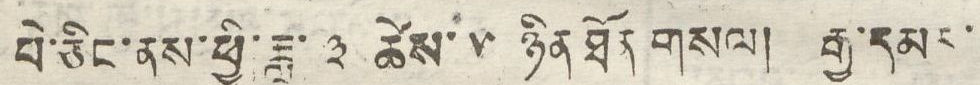པེ་ཅིང་ནས་ཕྱི་ཟླ་ ༣ ཚེས་ ༥ ཉིན ཐོན གསལ། རྒྱ་དམར་
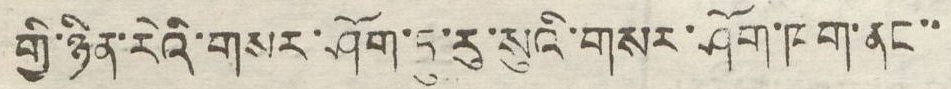གྱི་ཉིན་རེའི་གསར་ཤོག་དུ་རུ་སུའི་གསར་ཤོག་ཁག་ནང་་
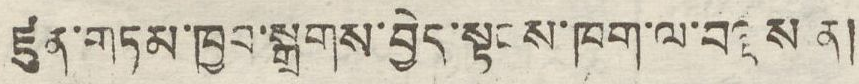ཛུན་གཏམ་ཁྱབ་སྒྲགས་བྱེད་སྟངས་ཁག་ལ་བལྟས ན།
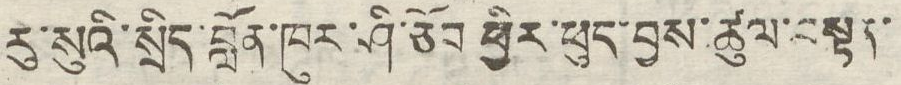རུ་སུའི་སྲིད་བློན་ཁུར་ཤི་ཅོབ ཕྱིར་ཕུད་བྱས་ཚུལ་བསྟན་
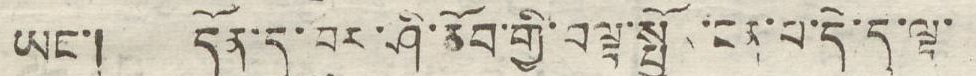ཡང་། དོན་དུ་ཁུར་ཤི་ཅོབ་གྱི་བལྟ་སྦྱོར་ངན་བ་དེ་ད་ལྟ་
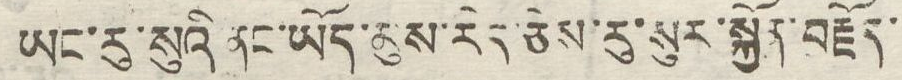ཡང་རུ་སུའི ནང་ཡོད་མུས་རེད་ཅེས་རུ་སུར་སྐྱོན་བརྗོད་
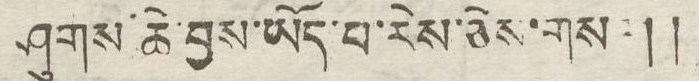ཤུགས་ཆེ་བྱས་ཡོད་པ་རེད་ཅེས་གསལ།།
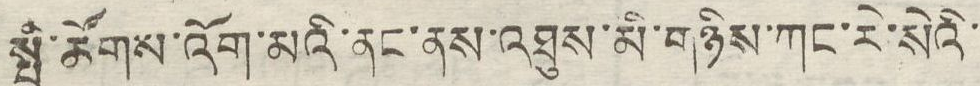སྤྱི་ཚོགས་འོག་མའི་ནང་ནས་འཐུས་མི་གཉིས་ཀང་རེ་སིའི་
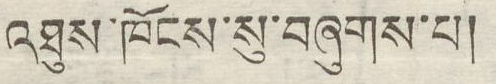འཐུས་ཁོངས་སུ་བཞུགས་པ།
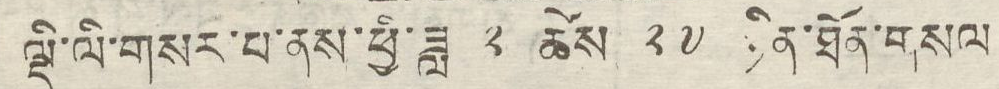ལྡི་ལི་གསར་པ་ནས་ཕྱི་ཟླ ༢ ཚེས་ ༢༧ ཉིན་ཐོན་གསལ
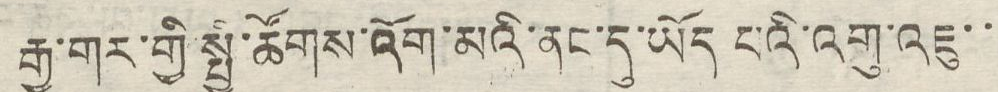རྒྱ་གར་གྱི་སྤྱི་ཚོགས་འོག་མའི་ནང་དུ་ཡོད པའི་འགུ་འཇུ་་
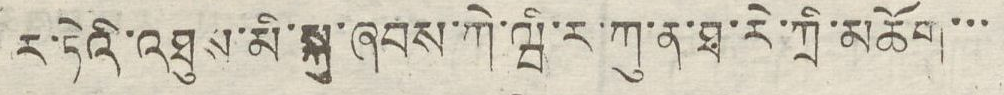ར་ཏེའི་འཐུས་མི་སྐུ་ཞབས་ཀེ་ཝི་ར་ཀུ་ན་ཐ་རེ་ཀྲི་མཆོག་་་
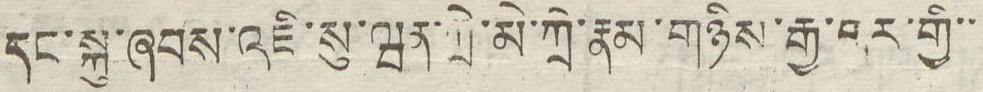དང་སྐུ་ཞབས་འཇི་སུ་ཝན་ཀྲེ་མེ་ཀྲེ་རྣམ་གཉིས་རྒྱ་གར་གྱི་་
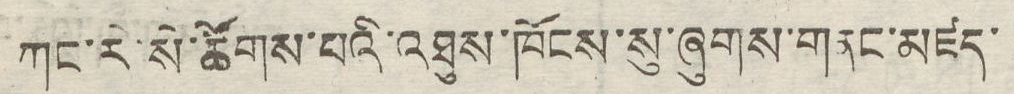ཀང་རེ་སེ་ཚོགས་པའི་འཐུས་ཁོངས་སུ་ཞུགས་གནང་མཛད་
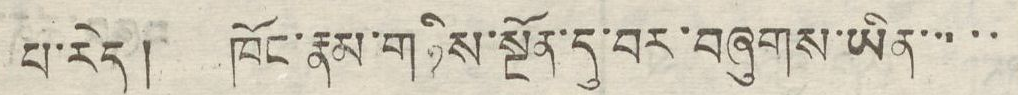པ་རེད། ཁོང་རྣམ་གཉིས་སྔོན་དུ་བར་བཞུགས་ཡིན་་་་་
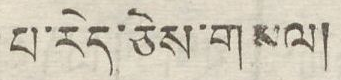པ་རེད་ཅེས་གསལ།
